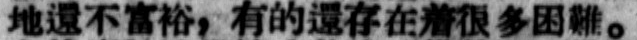地還不富裕，有的還存在着很多困難。
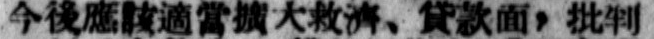今後應該適當擴大救濟、貸款面，批判
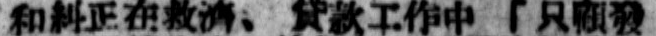和糾正在救濟、貸款工作中 「只顧發
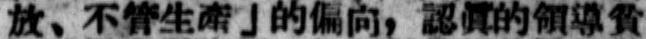放、不管生產」的偏向，認眞的領導貧
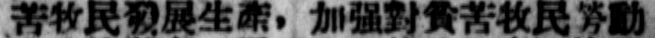苦牧民發展生產，加強對貧苦牧民勞動
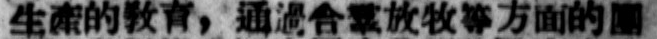生產的敎育，通過合羣放牧等方面的團
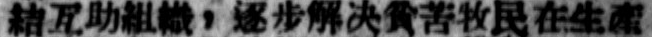結互助組織，逐步解決貧苦牧民在生產
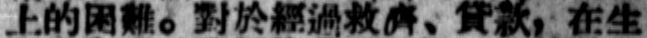上的困難。對於經過救濟、貸款，在生
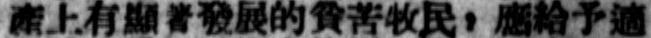產上有顯著發展的貧苦牧民，應給予適
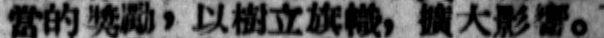當的獎勵，以樹立旗幟，擴大影響。
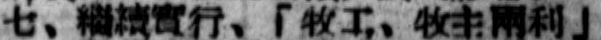七、繼續實行、「牧工、牧主兩利」
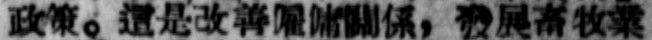政策。這是改善僱傭關係，發展畜牧業
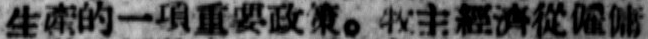生產隊一項重要政策。牧主經濟從僱傭
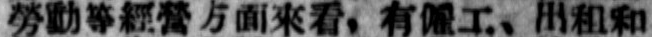勞動等經營方面來看，有僱工、出租和
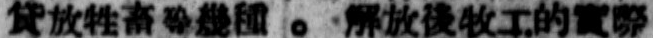貸放牲畜等幾種 。 解放後牧工的實際
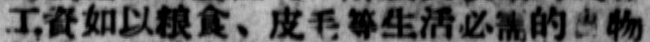工資如以糧食、皮毛等生活必需的食物
